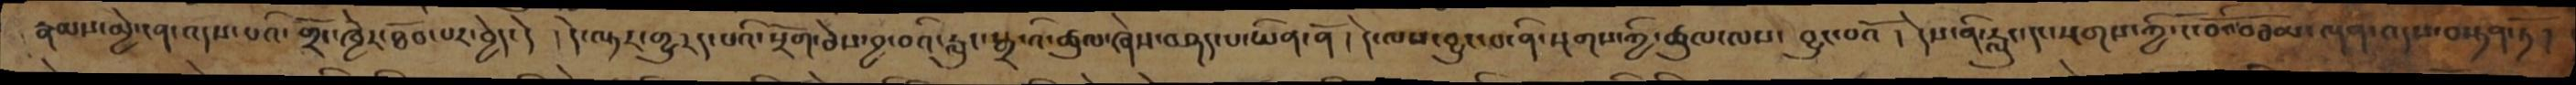རྣམས་མྱེ་ངན་འདས་པའི་གྲོང་ཁྱེར་ཐོབ་པར་བྱེད་དེ  །དེ་ལྟར་གྱུརད་པའི་སྲོག་ཅེས་བྱ་བའི་རླུང་སྒྲ་འི་ཚུལ་ཞེས་བཤད་པ་ཡིན་ནོ། དེ་ལས་བྱུང་བ་ནི་སྔགས་ཀྱི་ཚུལ་ལས་ བྱུང་བའོ། དེས་ནི་རླུང་དང་སྔགས་ཀྱི་ངོ་བོའ་བཅོམ་ལྡན་འདས་བསྟན་ཏོ །
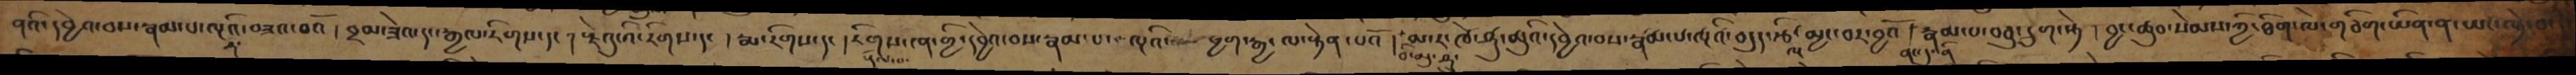ནའི་དབྱེའ་བས་རྣམ་པ་ལྔའི་བཟའ་བའོ། བྲམ་ཟེའ་དང་རྒྱལ་རིགས་དང། རྗེའུ་འི་རིགས་དང། རྨ་རིགས་དང། རིགས་ངན་གྱི་དབྱེས་བས་རྣམ་པ་ལྔའི་ཕྱག་རྒྱ་ལ་སྟེན་པའོ། བི་མུ་ཤུ་མ་ར་ཁེ་ཤུ་མུའི་དབྱེའ་བས་རྣམ་པ་ལྔའི་བདུད་རྩི་ལྔ་མྱང་བར་བྱའོ། ནང་དུ་ནི་རྣམ་པ་བཅུ་དྲུག་སྟེ། བྱང་ཆུབ་སེམས་ཀྱི་ཐིག་ལེ་གཅིག་ཡིན་ན་ཡང་ལྟེ་བ་
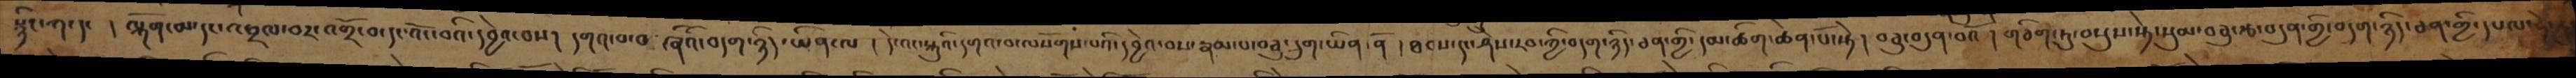སྙིང་ཀ་དང། ལྐོག་མ་དང་འབྲལ་བར་འགྲོ་བ་དང་འོང་བའི་དབྱེའ་བས། དགའ་བ་བ ཞིའི་བདག་ཉིད་ཡིན་ལ ། དེ་འང་སྐུའི་དགའ་བ་ལསོགས་པའི་དབྱེའ་བས་རྣམ་པ་བཅུ་དྲུག་ཡིན་ནོ །ཐབས་དང་ཤེས་རབ་ཀྱི་བདག་ཉིད་ཅན་གྱི་དམ་ཚིག་ཆེན་པོ་སྟེ། བཅུ་བདུན་པའོ། གཅིག་ཏུ་བསྡུས་སྟེ་སུམ་བཅུ་རྩ་བདུན་གྱི་བདག་ཉིད་ཅན་གྱི་དཔལ་ཧེ་རུ
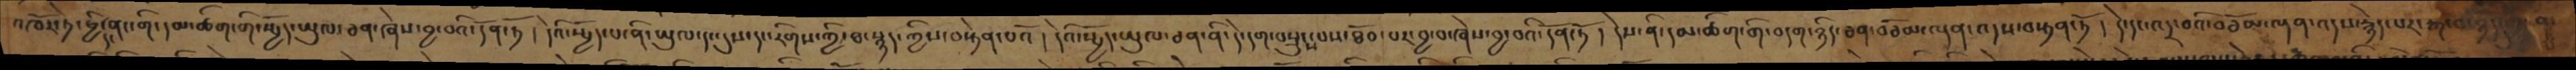འཁོར་ཏེ་ཕྱི་དང་ནང་གི་དམ་ཚིག་གི་སྤྱོད་ཡུལ་ཅན་ཞེས་བྱ་བའི་དོནཏོ། དེའི་སྤྱོད་པ་ནི་ཡུལ་དང་དུས་དང་རིགས་ཀྱི་ཐ་སྙད་ཀྱིས་བསྟེན་པའོ། དེའི་སྤྱོད་ཡུལ་ཅན་ནི་དེ་དག་བསྲུངས་བས་ཐོབ་པར་བྱ་བ་ཞེས་བྱ་བའི་དོན་ཏོ། དེས་ནི་དམ་ཚིག་གི་བདག་ཉིད་ཅན་བཅོམ་ལྡན་འདས་བསྟན་ཏོ། དེ་དང་འདྲ་བའི་བཅོམ་ལྡན་འདས་རྙེད་པར་རྒ་བ་ཉིད་གྱི་ན
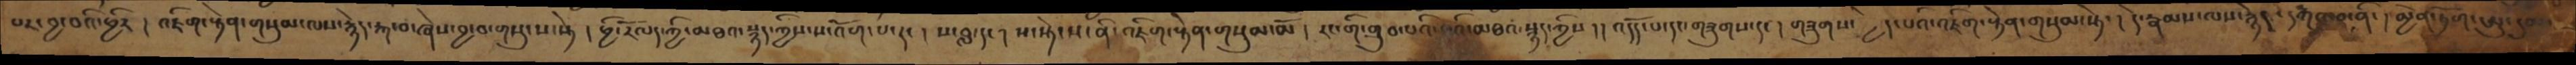པར་བྱ་བའི་ཕྱིར། འཇིག་རྟེན་གསུམ་ལས་རྙེད་རྐ་བ་ཞེས་བྱ་བ་གསུངས་སྟེ། ཕྱི་རོལད་ཀྱི་མཐའ་སྙད་ཀྱིས་ས་འོག་པ་དང། ས་བླ་དང། ས་སྟེངས་ནི་འཇིག་རྟེན་གསུམ་མོ། རང་གི་གྲུབ་པའི་སའི་མཐའ་སྙད་ཀྱིས། །འདོད་པ་དང་གཟུགས་དང། གཟུགས་མྱེད་པའི་འཇིག་རྟེན་གསུམ་སྟེ། དེ་རྣམས་ལས་རྙེད་དགའ་བ་ནི་། མྱེན་ཏོག་ཨུ་དུམ
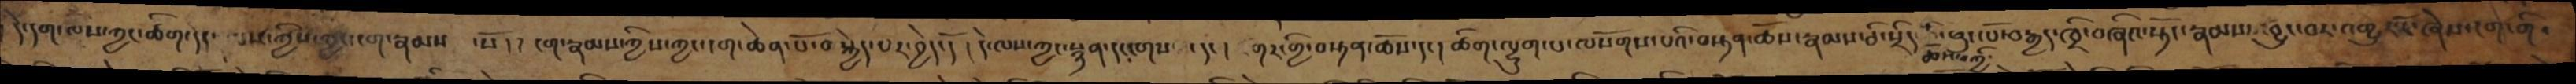དེ་དག་ལས་ཀྱང་ཚིག་དང་ ལས་ཀྱིས་ཀྱང་ངག་རྣམས་ སོ། །ངག་རྣམས་ཀྱིས་ཀྱང་ངག་ཆེན་པོ་བསྐྱེད་པར་བྱེད་དོ། དེ་ལས་ཀྱང་སྙན་དང་གསལ་དང། གར་གྱི་བསྟན་ཆོས་དང། ཚིག་ལྷུག་པ་ལསོགས་པའི་བསྟན་ཆོས་རྣམས་ཅི་སྲིད་ཆོས་ཀྱི་ཕུང་པོ་བརྒྱད་ཁྲི་བཞིའ་སྟོང་རྣམས་འབྱུང་བར་འགྱུར་རོ་ཞེས་ངག་གི་
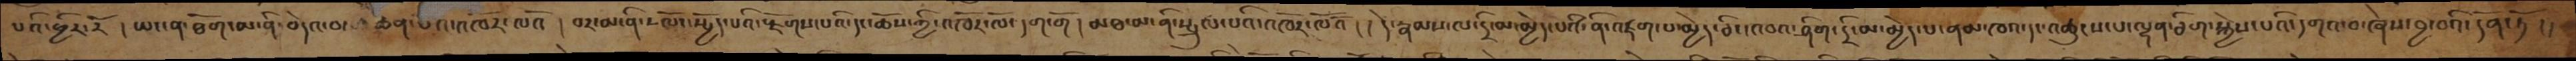པའི་ཕྱིར་རོ །ཡང་ན་ཐོག་མ་ནི་བདེའ་བ་མཚན་པའི་འཁོར་ལའོ །བར་མ་ནི་ལོངས་སྤྱོད་པའི་རྫོགས་པའི་དང་ཆོས་ཀྱི་འཁོར་ལོ་དག་གོ །མཐ་མ་ནི་སྤྲུལ་པའི་འཁོར་ལོའོ ། དེ་རྣམས་ལ་དྲི་མ་མྱེད་པའི་ནི་འཛག་པ་མྱེད་ཅིང་འབའ་ཤིག་དྲི་མ་མྱེད་པ་ནམ་ཁའ་དང་འཚུངས་པ་ལྷན་ཅིག་སྐྱེས་པའི་དགའ་བ་ཞེས་བྱ་བའི་དོན་ཏོ །།
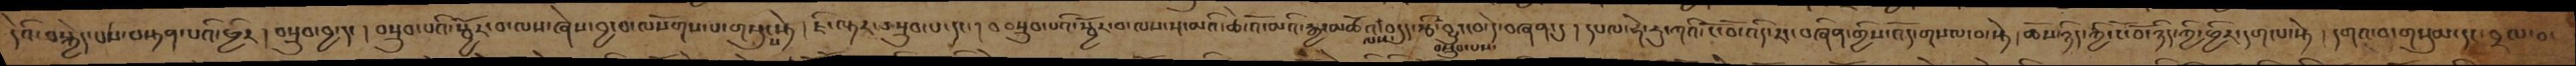དེའི་བསྐྱེད་པས་བསྟན་པའི་ཕྱིར། བསྲུབ་བྱ་དང། བསྲུབ་པའི་སྦྱོར་བ་ལས་ཞེས་བྱ་བ་ལསོགས་པ་གསུངས་ཏེ། ཇི་ལྟར་བསྲུབ་པ་དང། བབསྲུབ་པའི་སྦྱོར་བ་ལས་སྔ་མའི་ཆེ་འོ་མའི་རྒྱ་མཚོའ་ལས་བདུད་རྩི་བྱུང་བ་དེ་བཞན་དུ། དཔལ་ཧེ་རུ་ཀའི་ངོ་བོ་འདི་རང་བཞིན་གྱིས་འོད་གསལ་བ་སྟེ། ཆོས་ཉིད་ཀྱི་ངོ་བོ་ཉིད་ཀྱི་ཕྱིར་དག་པ་སྟེ། དགའ་བ་གསུམ་དང་བྲལ་བ་
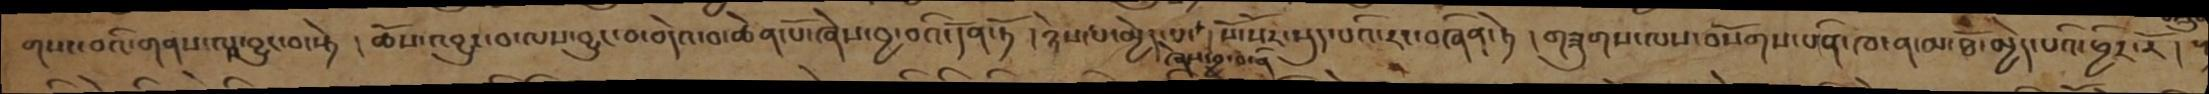གསང་བའི་གནས་ལས་བྱུང་བ་སྟེ། ཆོས་འབྱུང་བ་ལས་བྱུང་བ་བདེའ་བ་ཆེན་པོ་ཞེས་བྱ་བའི་དོན་ཏོ། ཉེས་པ་མྱེད་པ་ཞེས་བྱ་བ་ནི། སོ་སོར་སྡུད་པའི་རང་བཞིན་ཏེ། གཟུགས་ལས་བསོགས་པ་ནི་ཁ་ན་མ་ཐོ་མྱེད་པའི་ཕྱིར་རོ།
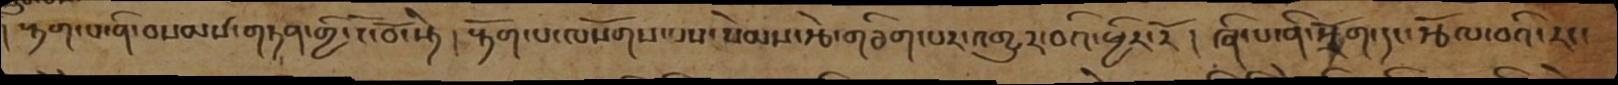། རྟག་པ་ནི་བསམ་གཏན་གྱི་ངོ་བོ་སྟེ །རྟོག་པ་ལསོགས་པས་སེམས་རྩེ་གཅིག་པར་འགྱུར་བའི་ཕྱིར་རོ །ཞི་པ་ནི་སྲོག་དང་རྩོལ་བའི་རང་
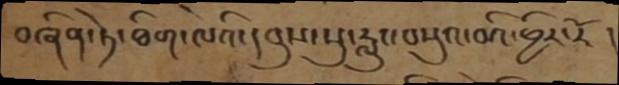བཞིན་ཏེ་ཐིག་ལེའི་དབུས་སུ་རླུང་བསྡུའ་བའི་ཕྱིར་རོ །
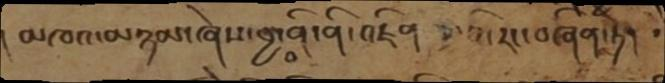།མཁའ་མཉམ་ཞེས་བྱ་བ་ནི་ནི་འཛིན་པའི་རང་བཞིན་ཏེ།
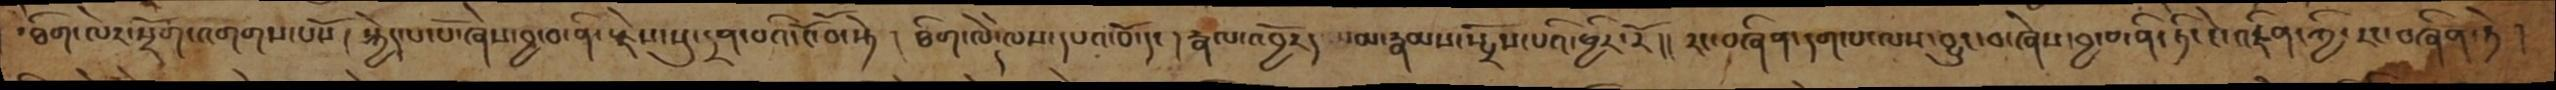་ཐིག་ལེར་སྲོག་འགགས་པསོ། སྐྱེད་པ་པོ་ཞེས་བྱ་བ་ནི་རྗེས་སུ་དྲན་པའི་ངོ་བོ་སྟེ། ཐིག་ལེ་དེ་ལས་དཔའ་བོ་དང། རྣལ་འབྱོརད་ མ་རྣམས་སྤྲོས་པའི་ཕྱིར་རོ།། རང་བཞིན་དག་པ་ལས་བྱུང་བ་ཞེས་བྱ་བ་ནི་ཏིངངེ་འཛིན་ཀྱི་རང་བཞིན་ཏེ །
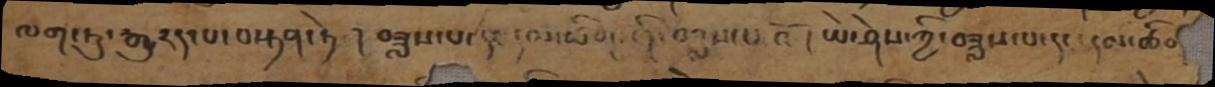ལག་ཏུ་རྒྱུརད་པ་བསྟན་ཏེ ། བཟླས་པ་དང་དམ་ཚིག་གི་བཟླས་པ འོ ། ཡེ་ཤེས་ཀྱི་བཟླས་པ་དང་དམ་ཚིག
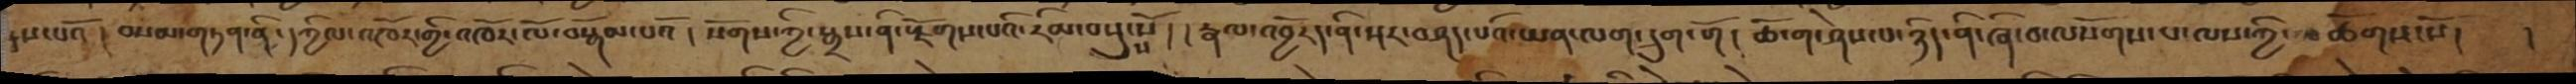དས་པའོ། བསམ་གཏན་ནི་དཀྱིལ་འཁོར་གྱི་འཁོར་ལོ་བསྒོམ་པའོ། སོགས་ཀྱི་སྒྲས་ནི་རྫོགས་པའི་རིམ་བསྡུས་སོ། །རྣལ་འབྱོརད་ནི་སྔར་བཤད་པའི་ཡན་ལག་དྲུག་གོ། ཆོ་ག་ཤེས་པ་ཉིད་ནི་ཞི་བ་ལསོགས་པ་ལས་ཀྱི་ཚོགས་སོ།   །
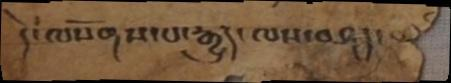དེ་ལསོགས་པ་རྒྱུད་ལས་བཤད་པ
